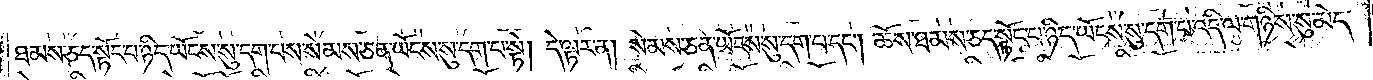ཐམས་ཅད་སྟོང་པ་ཉིད་ཡོངས་སུ་དག་པས་སེམས་ཅན་ཡོངས་སུ་དག་པ་སྟེ། དེ་ལྟར་ན། སེམས་ཅན་ཡོངས་སུ་དག་པ་དང༌། ཆོས་ཐམས་ཅད་སྟོང་པ་ཉིད་ཡོངས་སུ་དག་པ་འདི་ལ་གཉིས་སུ་མེད་
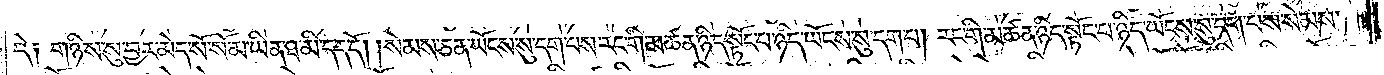དེ༑ གཉིས་སུ་བྱར་མེད་སོ་སོ་མ་ཡིན་ཐ་མི་དད་དོ། །སེམས་ཅན་ཡོངས་སུ་དག་པས་རང་གི་མཚན་ཉིད་སྟོང་པ་ཉིད་ཡོངས་སུ་དག་པ། རང་གི་མཚན་ཉིད་སྟོང་པ་ཉིད་ཡོངས་སུ་དག་པས་སེམས་
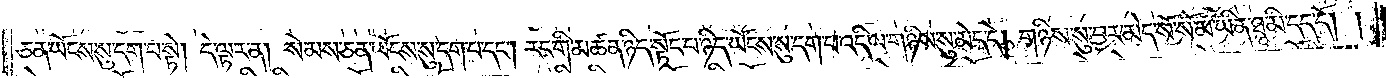ཅན་ཡོངས་སུ་དག་པ་སྟེ། དེ་ལྟར་ན། སེམས་ཅན་ཡོངས་སུ་དག་པ་དང༌། རང་གི་མཚན་ཉིད་སྟོང་པ་ཉིད་ཡོངས་སུ་དག་པ་འདི་ལ་གཉིས་སུ་མེད་དེ། གཉིས་སུ་བྱར་མེད་སོ་སོ་མ་ཡིན་ཐ་མི་དད་དོ། །
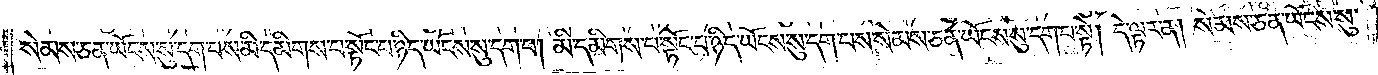སེམས་ཅན་ཡོངས་སུ་དག་པས་མི་དམིགས་པ་སྟོང་པ་ཉིད་ཡོངས་སུ་དག་པ། མི་དམིགས་པ་སྟོང་པ་ཉིད་ཡོངས་སུ་དག་པས་སེམས་ཅན་ཡོངས་སུ་དག་པ་སྟེ། དེ་ལྟར་ན། སེམས་ཅན་ཡོངས་སུ་
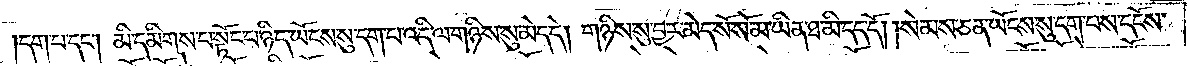དག་པ་དང༌། མི་དམིགས་པ་སྟོང་པ་ཉིད་ཡོངས་སུ་དག་པ་འདི་ལ་གཉིས་སུ་མེད་དེ། གཉིས་སུ་བྱར་མེད་སོ་སོ་མ་ཡིན་ཐ་མི་དད་དོ། །སེམས་ཅན་ཡོངས་སུ་དག་པས་དངོས་
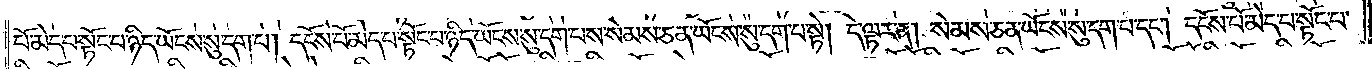པོ་མེད་པ་སྟོང་པ་ཉིད་ཡོངས་སུ་དག་པ། དངོས་པོ་མེད་པ་སྟོང་པ་ཉིད་ཡོངས་སུ་དག་པས་སེམས་ཅན་ཡོངས་སུ་དག་པ་སྟེ། དེ་ལྟར་ན། སེམས་ཅན་ཡོངས་སུ་དག་པ་དང༌། དངོས་པོ་མེད་པ་སྟོང་པ་
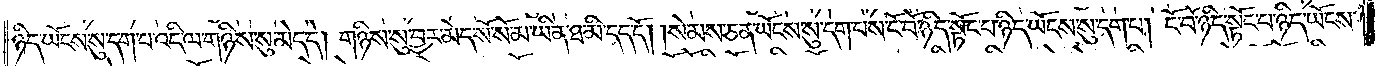ཉིད་ཡོངས་སུ་དག་པ་འདི་ལ་གཉིས་སུ་མེད་དེ། གཉིས་སུ་བྱར་མེད་སོ་སོ་མ་ཡིན་ཐ་མི་དད་དོ། །སེམས་ཅན་ཡོངས་སུ་དག་པས་ངོ་བོ་ཉིད་སྟོང་པ་ཉིད་ཡོངས་སུ་དག་པ། ངོ་བོ་ཉིད་སྟོང་པ་ཉིད་ཡོངས་
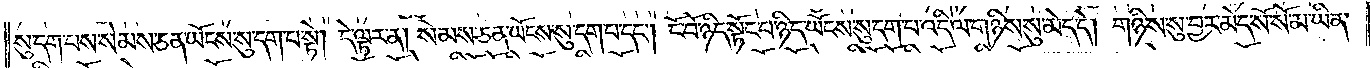སུ་དག་པས་སེམས་ཅན་ཡོངས་སུ་དག་པ་སྟེ། དེ་ལྟར་ན། སེམས་ཅན་ཡོངས་སུ་དག་པ་དང༌། ངོ་བོ་ཉིད་སྟོང་པ་ཉིད་ཡོངས་སུ་དག་པ་འདི་ལ་གཉིས་སུ་མེད་དེ། གཉིས་སུ་བྱར་མེད་སོ་སོ་མ་ཡིན་
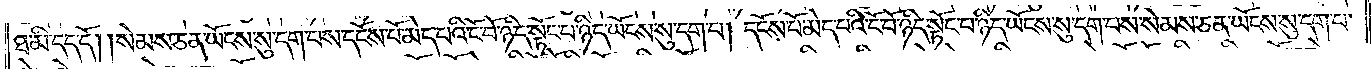ཐ་མི་དད་དོ། །སེམས་ཅན་ཡོངས་སུ་དག་པས་དངོས་པོ་མེད་པའི་ངོ་བོ་ཉིད་སྟོང་པ་ཉིད་ཡོངས་སུ་དག་པ། དངོས་པོ་མེད་པའི་ངོ་བོ་ཉིད་སྟོང་པ་ཉིད་ཡོངས་སུ་དག་པས་སེམས་ཅན་ཡོངས་སུ་དག་པ་
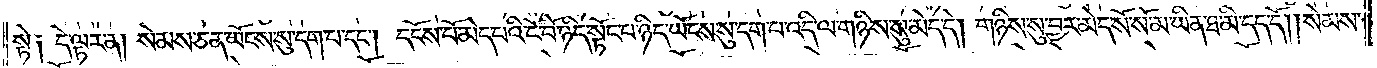སྟེ༑ དེ་ལྟར་ན། སེམས་ཅན་ཡོངས་སུ་དག་པ་དང༌། དངོས་པོ་མེད་པའི་ངོ་བོ་ཉིད་སྟོང་པ་ཉིད་ཡོངས་སུ་དག་པ་འདི་ལ་གཉིས་སུ་མེད་དེ། གཉིས་སུ་བྱར་མེད་སོ་སོ་མ་ཡིན་ཐ་མི་དད་དོ། །སེམས་
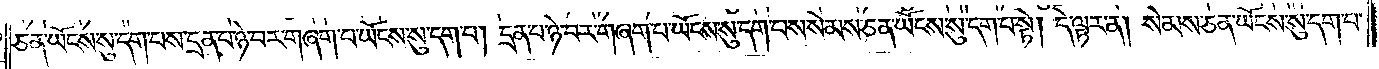ཅན་ཡོངས་སུ་དག་པས་དྲན་པ་ཉེ་བར་བཞག་པ་ཡོངས་སུ་དག་པ། དྲན་པ་ཉེ་བར་བཞག་པ་ཡོངས་སུ་དག་པས་སེམས་ཅན་ཡོངས་སུ་དག་པ་སྟེ། དེ་ལྟར་ན། སེམས་ཅན་ཡོངས་སུ་དག་པ་
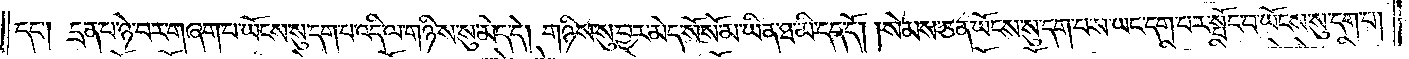དང༌། དྲན་པ་ཉེ་བར་བཞག་པ་ཡོངས་སུ་དག་པ་འདི་ལ་གཉིས་སུ་མེད་དེ། གཉིས་སུ་བྱར་མེད་སོ་སོ་མ་ཡིན་ཐ་མི་དད་དོ། །སེམས་ཅན་ཡོངས་སུ་དག་པས་ཡང་དག་པར་སྤོང་བ་ཡོངས་སུ་དག་པ།
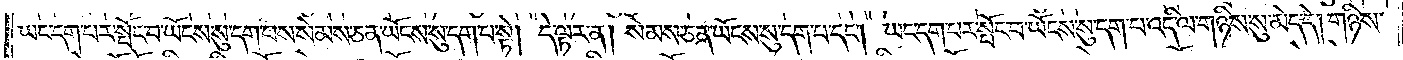ཡང་དག་པར་སྤོང་བ་ཡོངས་སུ་དག་པས་སེམས་ཅན་ཡོངས་སུ་དག་པ་སྟེ། དེ་ལྟར་ན། སེམས་ཅན་ཡོངས་སུ་དག་པ་དང༌། ཡང་དག་པར་སྤོང་བ་ཡོངས་སུ་དག་པ་འདི་ལ་གཉིས་སུ་མེད་དེ། གཉིས་
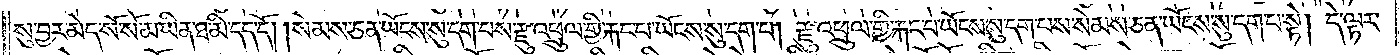སུ་བྱར་མེད་སོ་སོ་མ་ཡིན་ཐ་མི་དད་དོ། །སེམས་ཅན་ཡོངས་སུ་དག་པས་རྫུ་འཕྲུལ་གྱི་རྐང་པ་ཡོངས་སུ་དག་པ། རྫུ་འཕྲུལ་གྱི་རྐང་པ་ཡོངས་སུ་དག་པས་སེམས་ཅན་ཡོངས་སུ་དག་པ་སྟེ། དེ་ལྟར་
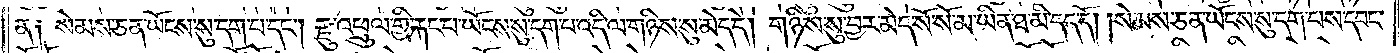ན༑ སེམས་ཅན་ཡོངས་སུ་དག་པ་དང༌། རྫུ་འཕྲུལ་གྱི་རྐང་པ་ཡོངས་སུ་དག་པ་འདི་ལ་གཉིས་སུ་མེད་དེ། གཉིས་སུ་བྱར་མེད་སོ་སོ་མ་ཡིན་ཐ་མི་དད་དོ། །སེམས་ཅན་ཡོངས་སུ་དག་པས་དབང་
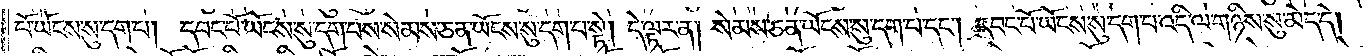པོ་ཡོངས་སུ་དག་པ། དབང་པོ་ཡོངས་སུ་དག་པས་སེམས་ཅན་ཡོངས་སུ་དག་པ་སྟེ། དེ་ལྟར་ན། སེམས་ཅན་ཡོངས་སུ་དག་པ་དང༌། དབང་པོ་ཡོངས་སུ་དག་པ་འདི་ལ་གཉིས་སུ་མེད་དེ།
